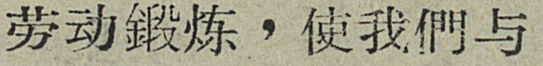劳动鍛炼，使我們与
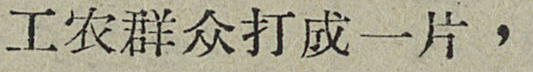工农群众打成一片，
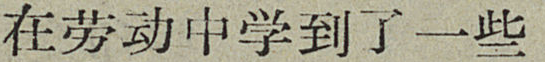在劳动中学到了一些
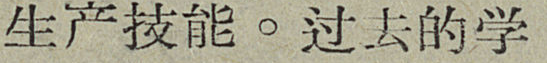生产技能。过去的学
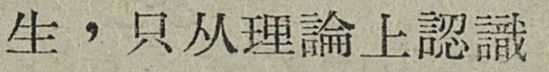省，只从理論上認識
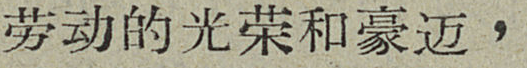劳动的光荣和豪迈，
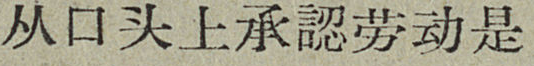从口头上承認劳动是
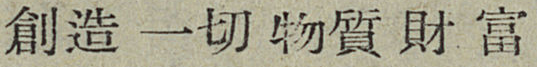創造一切物質財富
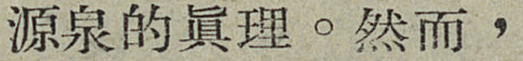源泉的眞理。然而，
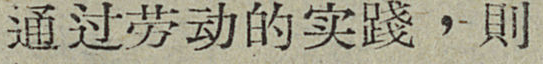通过劳动的实踐，則
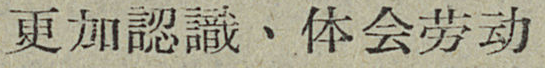更加認識、体会劳动
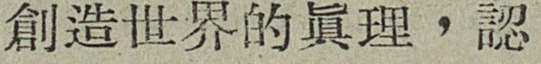創造世界的眞理，認
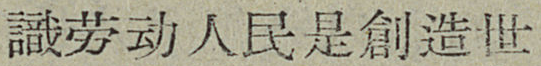識劳动人民是創造世
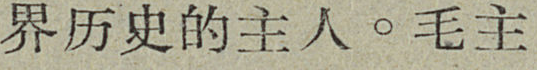界历史的主任。毛主
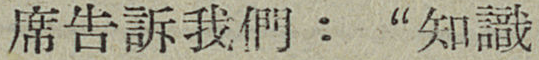席告訴我們：“知識
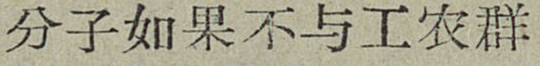分子如果不与工农群
